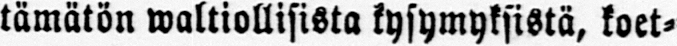tämätön waltiollisista kysymyksistä, koet-
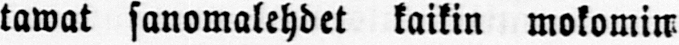tawat sanomalehdet kaikin mokomin,
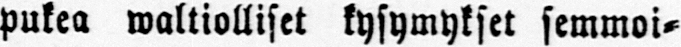pukea waltiolliset kysymykset semmoi-
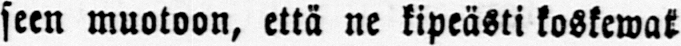seen muotoon, että ne kipeästi koskewat
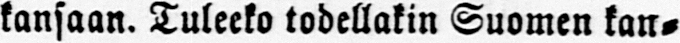kansaan. Tuleeko todellakin Suomen kan-
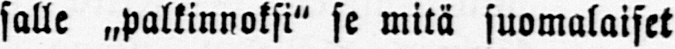salle ˶palkinnoksi" se mitä suomalaiset
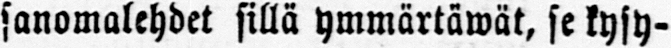sanomalehdet sillä ymmärtäwät, se kysy-
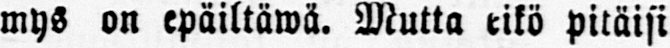mys on epäiltäwä. Mutta eikö pitäisi
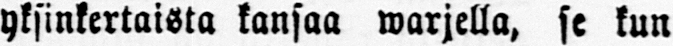yksinkertaista kansaa warjella, se kun
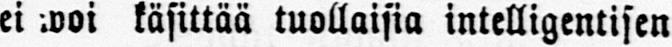ei woi käsittää tuollaisia intelligentisen
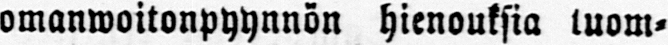omanwoitonpyynnön hienouksia tuom-
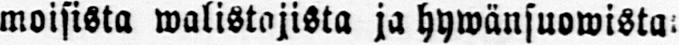moisista walistajista ja hywänsuowista:
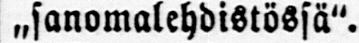˶sanomalehdistössä".
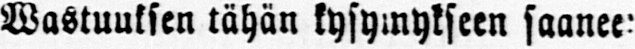Wastuuksen tähän kysymykseen saanee:
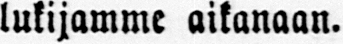lukijamme aikanaan.
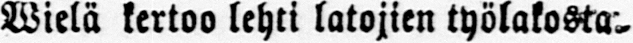Wielä kertoo lehti latojien työlakosta-
